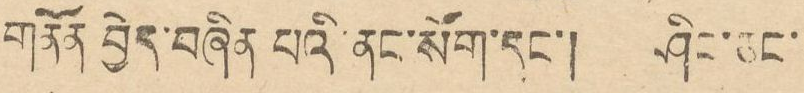གནོན བྱེད་བཞིན པའི་ནང་སོག་དང་། ཤིང་ཅང་
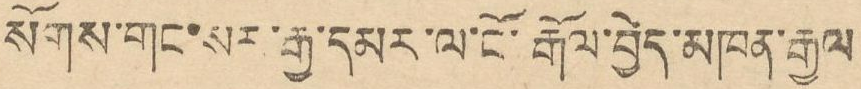སོགས་གང་སར་རྒྱ་དམར་ལ་ངོ་རྒོལ་བྱེད་མཁན་རྒྱལ
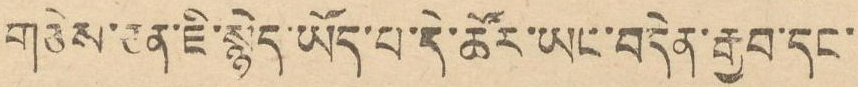གཅེས་ཅན་ཀི་རྙེད་ཡོད་པ་དེ་ཚོར་ཡང་བདེན་རྒྱབ་དང་
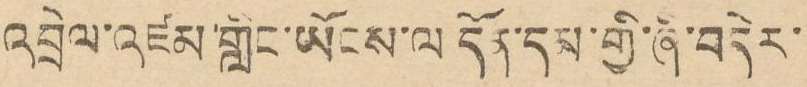འབྲེལ་འཛམ་གླིང་ཡོངས་ལ དོན་དམ་གྱི་ཞི་བདེར་
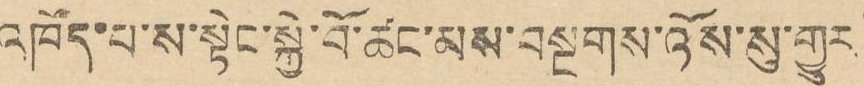འཁོད་པ་ས་སྟེང་སྐྱེ་བོ་ཚང་མས་བསྔགས་འོས་སུ་གྱུར་
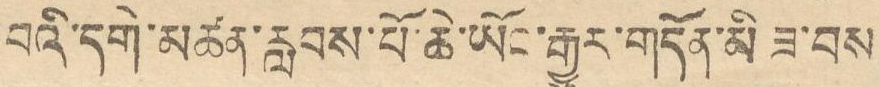བའི་དགེ་མཚན་རླབས་པོ་ཆེ་ཡོང་རྒྱུར་གདོན་མི ཟ་བས
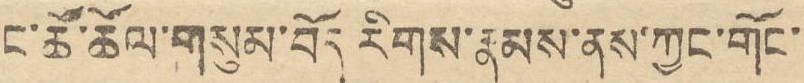ང་ཚོ་ཆོལ་གསུམ་བོད རིགས་རྣམས་ནས་ཀྱང་གོང་
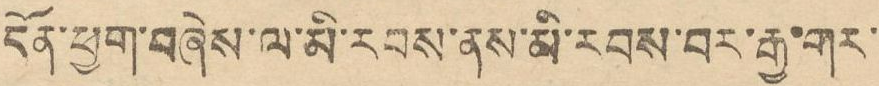དོན་ཕྱག་བཞེས་ལ་མི་རབས་ནས་མི་རབས་བར་རྒྱ་གར་
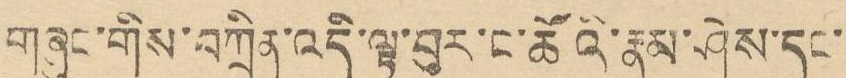གཞུང་གིས་བཀྲིན་འདི་ལྟ་བུར་ང་ཚོའི་རྣམ་ཤེས་དང་
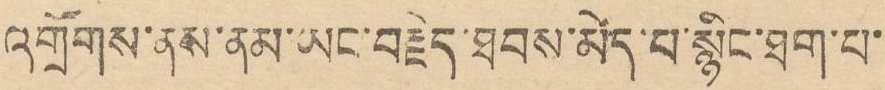འགྲོགས་ནས་ནམ་ཡང་བརྗེད་ཐབས་མེད་པ་སྙིང་ཐག་པ་
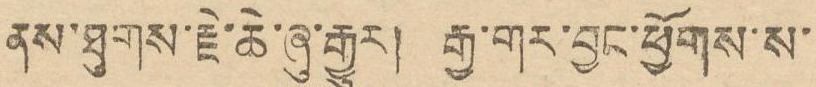ནས་ཐུགས་རྗེ་ཆེ་ཞུ་རྒྱུར། རྒྱ་གར་བྱང་ཕྱོགས་ས་
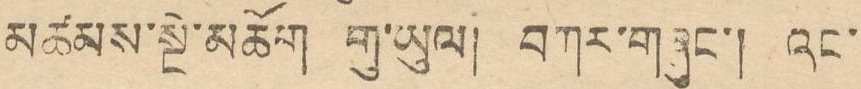མཚམས་སྔེ་མཆོག གུ་ཡུལ། བཀར་གཞུང་། འང་
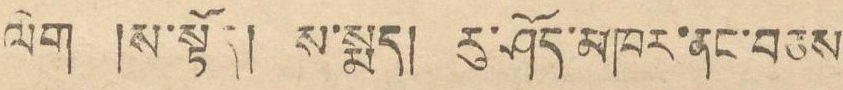ལེག །ས་སྟོད། ས་སྨད། རུ་ཤོད་མཁར་ནང་བཅས
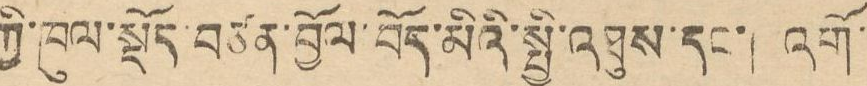ཀྱི་ཁུལ་སྡོད་བཙན་བྱོལ་བོད་མིའི་སྤྱི་འཐུས་དང་། འགོ་
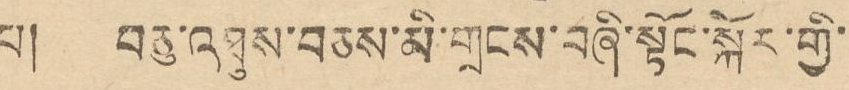པ། བཅུ་མཐུས་བཅས་མི་གྲངས་བཞི་སྟོང་སྐོར་གྱི་
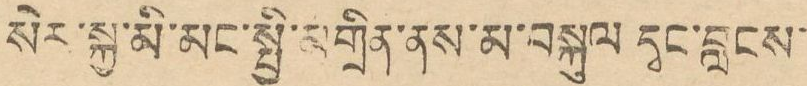སེར་སྐྱ་མི་མང་སྤྱི་མགྲིན་ནས་མ་བསྐུལ དྭང་བླངས་
